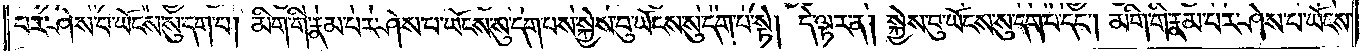པར་ཤེས་པ་ཡོངས་སུ་དག་པ། མིག་གི་རྣམ་པར་ཤེས་པ་ཡོངས་སུ་དག་པས་སྐྱེས་བུ་ཡོངས་སུ་དག་པ་སྟེ། དེ་ལྟར་ན། སྐྱེས་བུ་ཡོངས་སུ་དག་པ་དང༌། མིག་གི་རྣམ་པར་ཤེས་པ་ཡོངས་
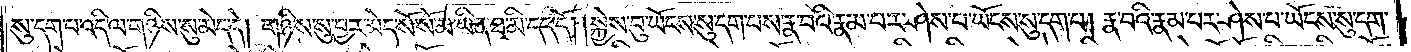སུ་དག་པ་འདི་ལ་གཉིས་སུ་མེད་དེ། གཉིས་སུ་བྱར་མེད་སོ་སོ་མ་ཡིན་ཐ་མི་དད་དོ། །སྐྱེས་བུ་ཡོངས་སུ་དག་པས་རྣ་བའི་རྣམ་པར་ཤེས་པ་ཡོངས་སུ་དག་པ། རྣ་བའི་རྣམ་པར་ཤེས་པ་ཡོངས་སུ་དག་
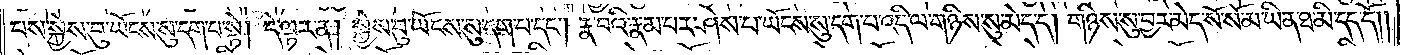པས་སྐྱེས་བུ་ཡོངས་སུ་དག་པ་སྟེ། དེ་ལྟར་ན། སྐྱེས་བུ་ཡོངས་སུ་དག་པ་དང༌། རྣ་བའི་རྣམ་པར་ཤེས་པ་ཡོངས་སུ་དག་པ་འདི་ལ་གཉིས་སུ་མེད་དེ། གཉིས་སུ་བྱར་མེད་སོ་སོ་མ་ཡིན་ཐ་མི་དད་དོ། །
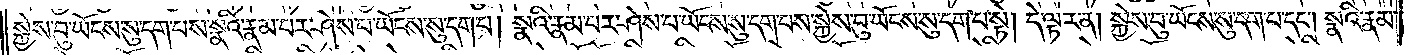སྐྱེས་བུ་ཡོངས་སུ་དག་པས་སྣའི་རྣམ་པར་ཤེས་པ་ཡོངས་སུ་དག་པ། སྣའི་རྣམ་པར་ཤེས་པ་ཡོངས་སུ་དག་པས་སྐྱེས་བུ་ཡོངས་སུ་དག་པ་སྟེ། དེ་ལྟར་ན། སྐྱེས་བུ་ཡོངས་སུ་དག་པ་དང༌། སྣའི་རྣམ་
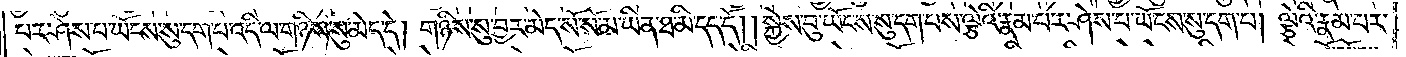པར་ཤེས་པ་ཡོངས་སུ་དག་པ་འདི་ལ་གཉིས་སུ་མེད་དེ། གཉིས་སུ་བྱར་མེད་སོ་སོ་མ་ཡིན་ཐ་མི་དད་དོ། །སྐྱེས་བུ་ཡོངས་སུ་དག་པས་ལྕེའི་རྣམ་པར་ཤེས་པ་ཡོངས་སུ་དག་པ། ལྕེའི་རྣམ་པར་
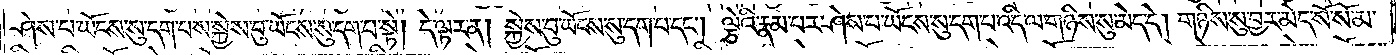ཤེས་པ་ཡོངས་སུ་དག་པས་སྐྱེས་བུ་ཡོངས་སུ་དག་པ་སྟེ། དེ་ལྟར་ན། སྐྱེས་བུ་ཡོངས་སུ་དག་པ་དང༌། ལྕེའི་རྣམ་པར་ཤེས་པ་ཡོངས་སུ་དག་པ་འདི་ལ་གཉིས་སུ་མེད་དེ། གཉིས་སུ་བྱར་མེད་སོ་སོ་མ་
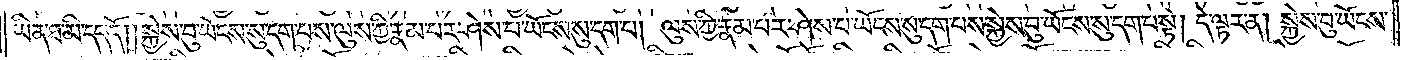ཡིན་ཐ་མི་དད་དོ། །སྐྱེས་བུ་ཡོངས་སུ་དག་པས་ལུས་ཀྱི་རྣམ་པར་ཤེས་པ་ཡོངས་སུ་དག་པ། ལུས་ཀྱི་རྣམ་པར་ཤེས་པ་ཡོངས་སུ་དག་པས་སྐྱེས་བུ་ཡོངས་སུ་དག་པ་སྟེ། དེ་ལྟར་ན། སྐྱེས་བུ་ཡོངས་
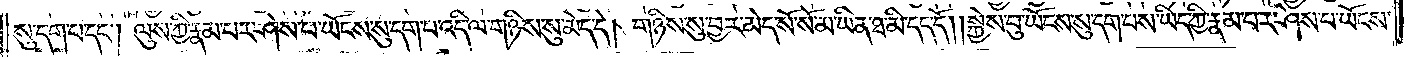སུ་དག་པ་དང༌། ལུས་ཀྱི་རྣམ་པར་ཤེས་པ་ཡོངས་སུ་དག་པ་འདི་ལ་གཉིས་སུ་མེད་དེ། གཉིས་སུ་བྱར་མེད་སོ་སོ་མ་ཡིན་ཐ་མི་དད་དོ། །སྐྱེས་བུ་ཡོངས་སུ་དག་པས་ཡིད་ཀྱི་རྣམ་པར་ཤེས་པ་ཡོངས་
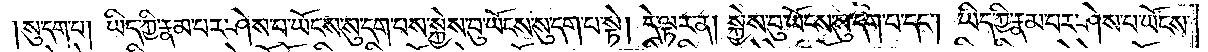སུ་དག་པ། ཡིད་ཀྱི་རྣམ་པར་ཤེས་པ་ཡོངས་སུ་དག་པས་སྐྱེས་བུ་ཡོངས་སུ་དག་པ་སྟེ། དེ་ལྟར་ན། སྐྱེས་བུ་ཡོངས་སུ་དག་པ་དང༌། ཡིད་ཀྱི་རྣམ་པར་ཤེས་པ་ཡོངས་
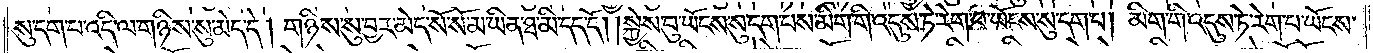སུ་དག་པ་འདི་ལ་གཉིས་སུ་མེད་དེ། གཉིས་སུ་བྱར་མེད་སོ་སོ་མ་ཡིན་ཐ་མི་དད་དོ། །སྐྱེས་བུ་ཡོངས་སུ་དག་པས་མིག་གི་འདུས་ཏེ་རེག་པ་ཡོངས་སུ་དག་པ། །མིག་གི་འདུས་ཏེ་རེག་པ་ཡོངས་
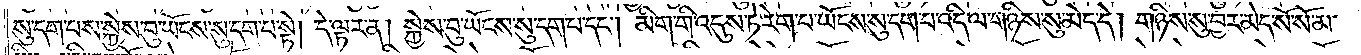སུ་དག་པས་སྐྱེས་བུ་ཡོངས་སུ་དག་པ་སྟེ། དེ་ལྟར་ན། སྐྱེས་བུ་ཡོངས་སུ་དག་པ་དང༌། མིག་གི་འདུས་ཏེ་རེག་པ་ཡོངས་སུ་དག་པ་འདི་ལ་གཉིས་སུ་མེད་དེ། གཉིས་སུ་བྱར་མེད་སོ་སོ་མ་
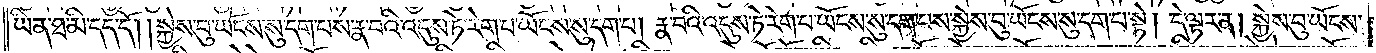ཡིན་ཐ་མི་དད་དོ། །སྐྱེས་བུ་ཡོངས་སུ་དག་པས་རྣ་བའི་འདུས་ཏེ་རེག་པ་ཡོངས་སུ་དག་པ། རྣ་བའི་འདུས་ཏེ་རེག་པ་ཡོངས་སུ་དག་པས་སྐྱེས་བུ་ཡོངས་སུ་དག་པ་སྟེ། དེ་ལྟར་ན། སྐྱེས་བུ་ཡོངས་
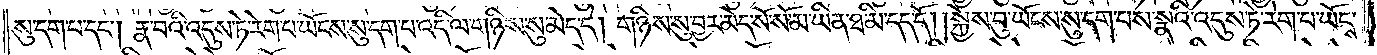སུ་དག་པ་དང༌། རྣ་བའི་འདུས་ཏེ་རེག་པ་ཡོངས་སུ་དག་པ་འདི་ལ་གཉིས་སུ་མེད་དེ། གཉིས་སུ་བྱར་མེད་སོ་སོ་མ་ཡིན་ཐ་མི་དད་དོ། །སྐྱེས་བུ་ཡོངས་སུ་དག་པས་སྣའི་འདུས་ཏེ་རེག་པ་ཡོངས་
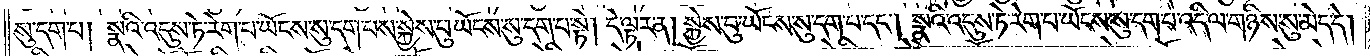སུ་དག་པ། སྣའི་འདུས་ཏེ་རེག་པ་ཡོངས་སུ་དག་པས་སྐྱེས་བུ་ཡོངས་སུ་དག་པ་སྟེ། དེ་ལྟར་ན། སྐྱེས་བུ་ཡོངས་སུ་དག་པ་དང༌། སྣའི་འདུས་ཏེ་རེག་པ་ཡོངས་སུ་དག་པ་འདི་ལ་གཉིས་སུ་མེད་དེ།
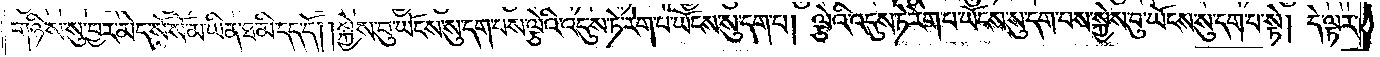གཉིས་སུ་བྱར་མེད་སོ་སོ་མ་ཡིན་ཐ་མ་ཡིན་ཐ་མི་དད་དོ། །སྐྱེས་བུ་ཡོངས་སུ་དག་པས་ལྕེའི་འདུས་ཏེ་རེག་པ་ཡོངས་སུ་དག་པ། ལྕེའི་འདུས་ཏེ་རེག་པ་ཡོངས་སུ་དག་པས་སྐྱེས་བུ་ཡོངས་སུ་དག་པ་སྟེ། དེ་ལྟར་
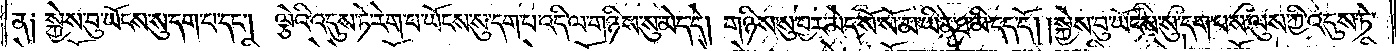ན༑ སྐྱེས་བུ་ཡོངས་སུ་དག་པ་དང༌། ལྕེའི་འདུས་ཏེ་རེག་པ་ཡོངས་སུ་དག་པ་འདི་ལ་གཉིས་སུ་མེད་དེ། གཉིས་སུ་བྱར་མེད་སོ་སོ་མ་ཡིན་ཐ་མི་དད་དོ། །སྐྱེས་བུ་ཡོངས་སུ་དག་པས་ལུས་ཀྱི་འདུས་ཏེ་
